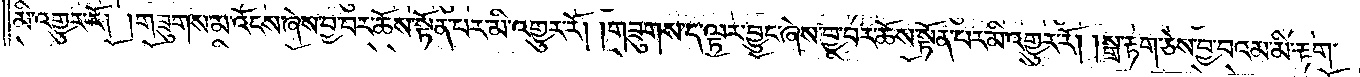མི་འགྱུར་རོ། །གཟུགས་མ་འོངས་ཞེས་བྱ་བར་ཆོས་སྟོན་པར་མི་འགྱུར་རོ། །གཟུགས་ད་ལྟར་བྱུང་ཞེས་བྱ་བར་ཆོས་སྟོན་པར་མི་འགྱུར་རོ། །སྒྲ་རྟག་ཅེས་བྱ་བའམ་མི་རྟག་
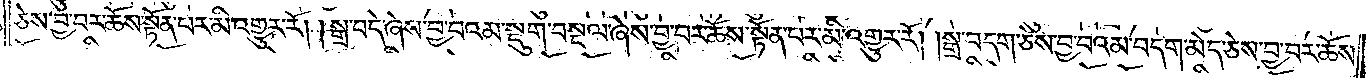ཅེས་བྱ་བར་ཆོས་སྟོན་པར་མི་འགྱུར་རོ། །སྒྲ་བདེ་ཞེས་བྱ་བའམ་སྡུག་བསྔལ་ཞེས་བྱ་བར་ཆོས་སྟོན་པར་མི་འགྱུར་རོ། །སྒྲ་བདག་ཅེས་བྱ་བའམ་བདག་མེད་ཅེས་བྱ་བར་ཆོས་
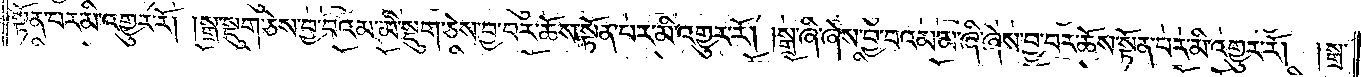སྟོན་པར་མི་འགྱུར་རོ། །སྒྲ་སྡུག་ཅེས་བྱ་བའམ་མི་སྡུག་ཅེས་བྱ་བར་ཆོས་སྟོན་པར་མི་འགྱུར་རོ། །སྒྲ་ཞི་ཞེས་བྱ་བའམ་མ་ཞི་ཞེས་བྱ་བར་ཆོས་སྟོན་པར་མི་འགྱུར་རོ། །སྒྲ་
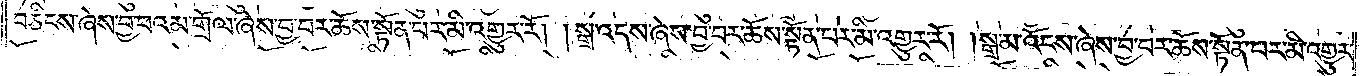བཅིངས་ཞེས་བྱ་བའམ་གྲོལ་ཞེས་བྱ་བར་ཆོས་སྟོན་པར་མི་འགྱུར་རོ། །སྒྲ་འདས་ཞེས་བྱ་བར་ཆོས་སྟོན་པར་མི་འགྱུར་རོ། །སྒྲ་མ་འོངས་ཞེས་བྱ་བར་ཆོས་སྟོན་པར་མི་འགྱུར་
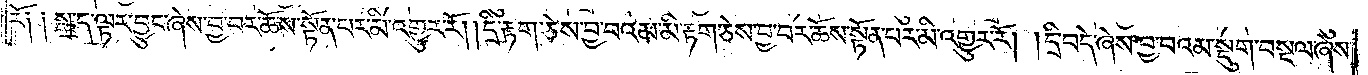རོ༑ ༑སྒྲ་ད་ལྟར་བྱུང་ཞེས་བྱ་བར་ཆོས་སྟོན་པར་མི་འགྱུར་རོ། །དྲི་རྟག་ཅེས་བྱ་བའམ་མི་རྟག་ཅེས་བྱ་བར་ཆོས་སྟོན་པར་མི་འགྱུར་རོ། །དྲི་བདེ་ཞེས་བྱ་བའམ་སྡུག་བསྔལ་ཞེས་
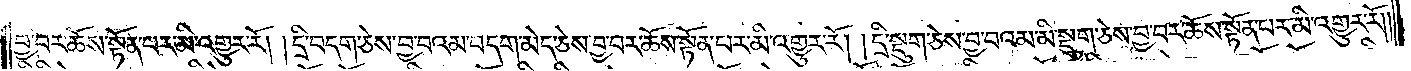བྱ་བར་ཆོས་སྟོན་པར་མི་འགྱུར་རོ། །དྲི་བདག་ཅེས་བྱ་བའམ་བདག་མེད་ཅེས་བྱ་བར་ཆོས་སྟོན་པར་མི་འགྱུར་རོ། །དྲི་སྡུག་ཅེས་བྱ་བའམ་མི་སྡུག་ཅེས་བྱ་བར་ཆོས་སྟོན་པར་མི་འགྱུར་རོ། །
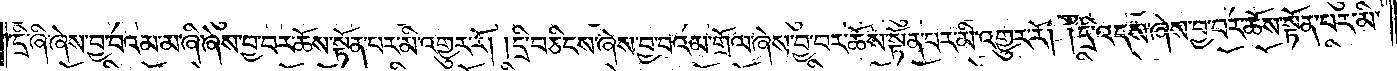དྲི་ཞི་ཞེས་བྱ་བའམ་མ་ཞི་ཞེས་བྱ་བར་ཆོས་སྟོན་པར་མི་འགྱུར་རོ། །དྲི་བཅིངས་ཞེས་བྱ་བའམ་གྲོལ་ཞེས་བྱ་བར་ཆོས་སྟོན་པར་མི་འགྱུར་རོ། །དྲི་འདས་ཞེས་བྱ་བར་ཆོས་སྟོན་པར་མི་
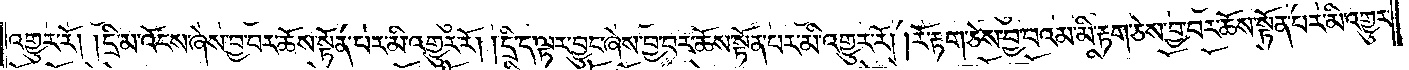འགྱུར་རོ། །དྲི་མ་འོངས་ཞེས་བྱ་བར་ཆོས་སྟོན་པར་མི་འགྱུར་རོ། །དྲི་ད་ལྟར་བྱུང་ཞེས་བྱ་བར་ཆོས་སྟོན་པར་མི་འགྱུར་རོ། །རོ་རྟག་ཅེས་བྱ་བའམ་མི་རྟག་ཅེས་བྱ་བར་ཆོས་སྟོན་པར་མི་འགྱུར་
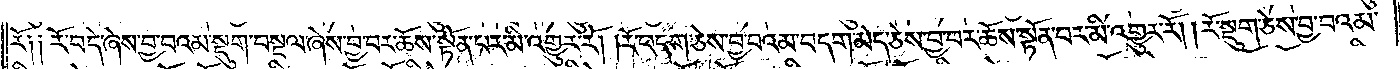རོ༑ ༑རོ་བདེ་ཞེས་བྱ་བའམ་སྡུག་བསྔལ་ཞེས་བྱ་བར་ཆོས་སྟོན་པར་མི་འགྱུར་རོ། །རོ་བདག་ཅེས་བྱ་བའམ་བདག་མེད་ཅེས་བྱ་བར་ཆོས་སྟོན་པར་མི་འགྱུར་རོ། །རོ་སྡུག་ཅེས་བྱ་བའམ་
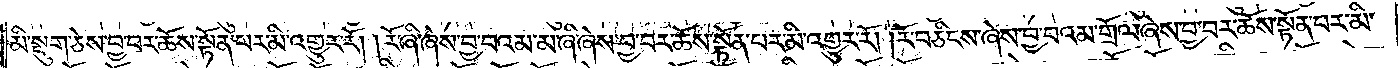མི་སྡུག་ཅེས་བྱ་བར་ཆོས་སྟོན་པར་མི་འགྱུར་རོ། །རོ་ཞི་ཞེས་བྱ་བའམ་མ་ཞི་ཞེས་བྱ་བར་ཆོས་སྟོན་པར་མི་འགྱུར་རོ། །རོ་བཅིངས་ཞེས་བྱ་བའམ་གྲོལ་ཞེས་བྱ་བར་ཆོས་སྟོན་པར་མི་
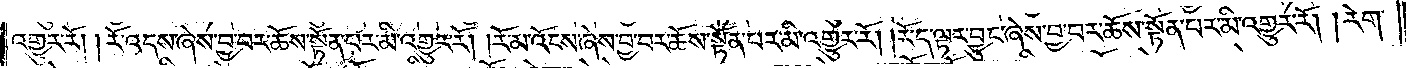འགྱུར་རོ། །རོ་འདས་ཞེས་བྱ་བར་ཆོས་སྟོན་པར་མི་འགྱུར་རོ། །རོ་མ་འོངས་ཞེས་བྱ་བར་ཆོས་སྟོན་པར་མི་འགྱུར་རོ། །རོ་ད་ལྟར་བྱུང་ཞེས་བྱ་བར་ཆོས་སྟོན་པར་མི་འགྱུར་རོ། །རེག་
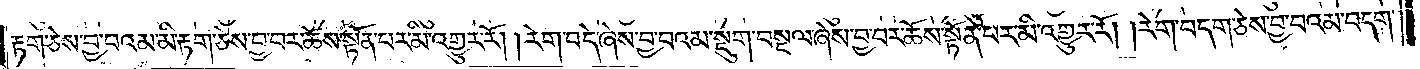རྟག་ཅེས་བྱ་བའམ་མི་རྟག་ཅེས་བྱ་བར་ཆོས་སྟོན་པར་མི་འགྱུར་རོ། །རེག་བདེ་ཞེས་བྱ་བའམ་སྡུག་བསྔལ་ཞེས་བྱ་བར་ཆོས་སྟོན་པར་མི་འགྱུར་རོ། །རེག་བདག་ཅེས་བྱ་བའམ་བདག་
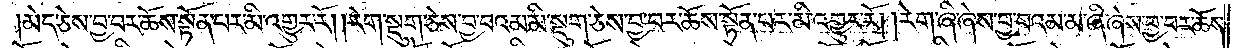མེད་ཅེས་བྱ་བར་ཆོས་སྟོན་པར་མི་འགྱུར་རོ། །རེག་སྡུག་ཅེས་བྱ་བའམ་མི་སྡུག་ཅེས་བྱ་བར་ཆོས་སྟོན་པར་མི་འགྱུར་རོ། །རེག་ཞི་ཞེས་བྱ་བའམ་མ་ཞི་ཞེས་བྱ་བར་ཆོས་
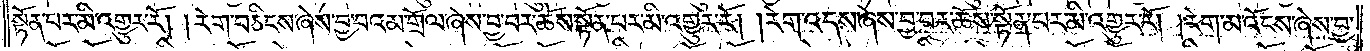སྟོན་པར་མི་འགྱུར་རོ། །རེག་བཅིངས་ཞེས་བྱ་བའམ་གྲོལ་ཞེས་བྱ་བར་ཆོས་སྟོན་པར་མི་འགྱུར་རོ། །རེག་འདས་ཞེས་བྱ་བར་ཆོས་སྟོན་པར་མི་འགྱུར་རོ། །རེག་མ་འོངས་ཞེས་བྱ་
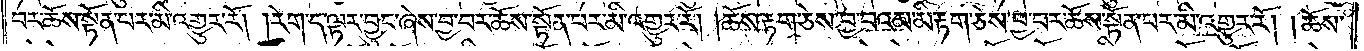བར་ཆོས་སྟོན་པར་མི་འགྱུར་རོ། །རེག་ད་ལྟར་བྱུང་ཞེས་བྱ་བར་ཆོས་སྟོན་པར་མི་འགྱུར་རོ། །ཆོས་རྟག་ཅེས་བྱ་བའམ་མི་རྟག་ཅེས་བྱ་བར་ཆོས་སྟོན་པར་མི་འགྱུར་རོ། །ཆོས་
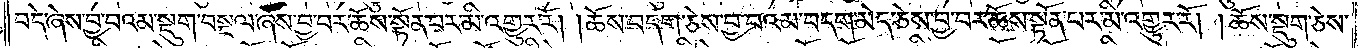བདེ་ཞེས་བྱ་བའམ་སྡུག་བསྔལ་ཞེས་བྱ་བར་ཆོས་སྟོན་པར་མི་འགྱུར་རོ། །ཆོས་བདག་ཅེས་བྱ་བའམ་བདག་མེད་ཅེས་བྱ་བར་ཆོས་སྟོན་པར་མི་འགྱུར་རོ། །ཆོས་སྡུག་ཅེས་
